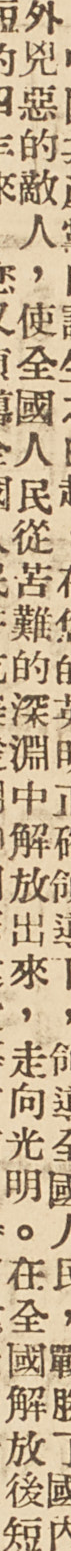外兇惡的敵人，使全國人民從苦難的深淵中解放出來，走向光明。在全國解放後短
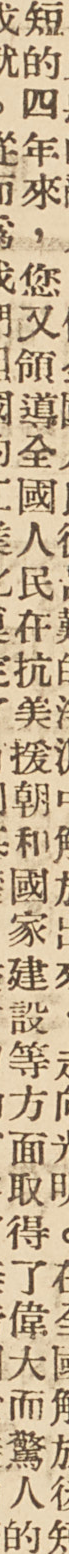短的四年來，您又領導全國人民在抗美援朝和國家建設等方面取得了偉大而驚人的
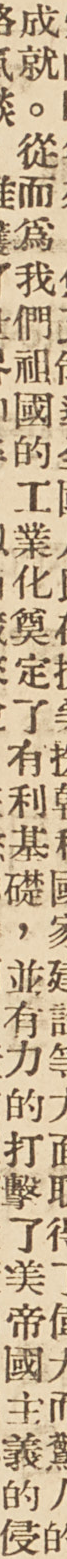成就。從而爲我們祖國的工業化奠定了有力基礎，並有力的打擊了美帝國主義的侵
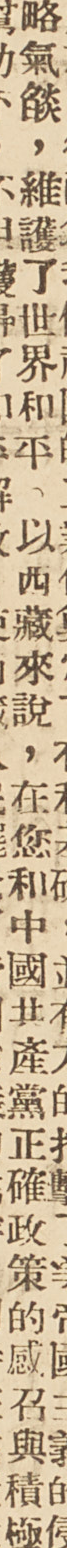略氣燄，維護了世界和平。以西藏來說，在您和中國共產黨正確政策的感召與積極
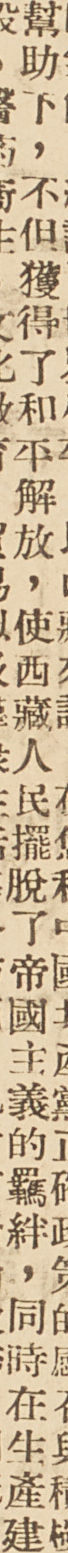幫助下，不但獲得了和平解放，使西藏人民擺脫了帝國主義的羈絆，同時在生產建
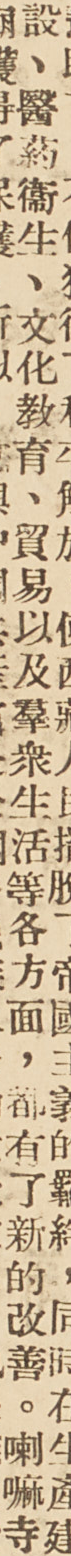設、醫藥衛生、文化教育、貿易以及羣衆生活等各方面，都有了新的改善。喇嘛寺
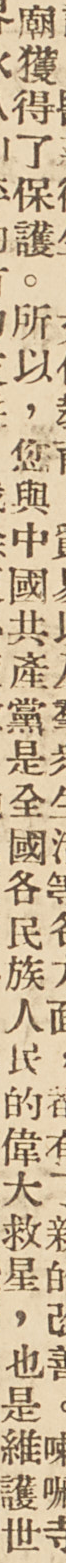廟獲得了保護。所以，您與中國共產黨是全國各民族人民的偉大救星，也是維護世
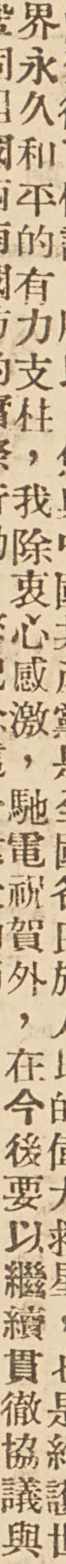界永久和平的有力支柱，我除衷心感激，馳電祝賀外，在今後要以繼續貫徹協議與
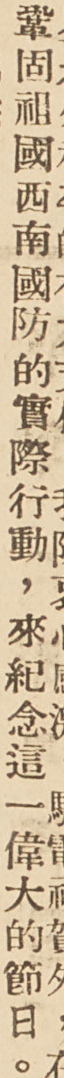鞏固祖國西南國防的實際行動，來紀念這一偉大的節日。
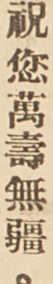祝您萬壽無疆。
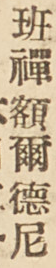班禪額爾德尼
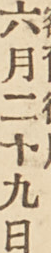六月二十九日
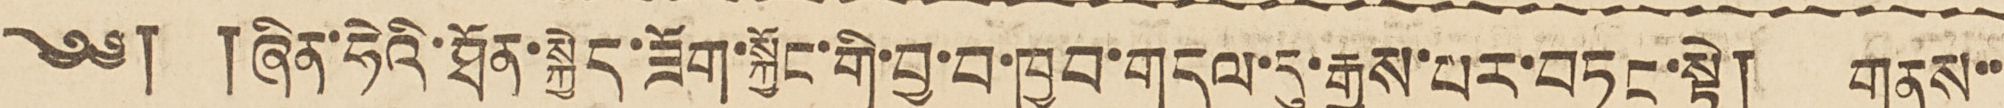༄༅། །ཞིན་ཧེའི་ཐོན་སྐྱེད་ཟོག་སྐྱོང་གི་བྱ་བ་ཁྱབ་གདལ་དུ་རྒྱས་པར་བཏང་སྟེ། གནས་་
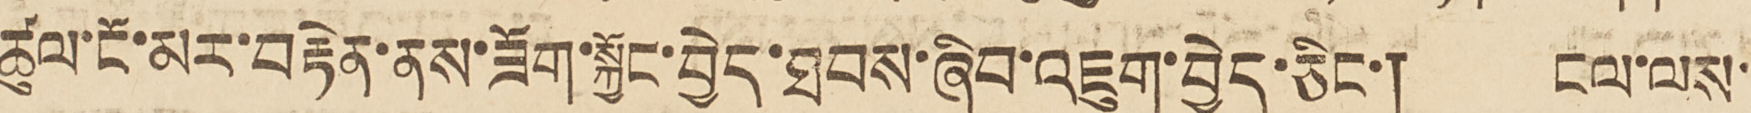ཚུལ་ངོ་མར་བརྟེན་ནས་ཟོག་སྐྱོང་བྱེད་ཐབས་ཞིབ་འཇུག་བྱེད་ཅིང་། ངལ་ལས་
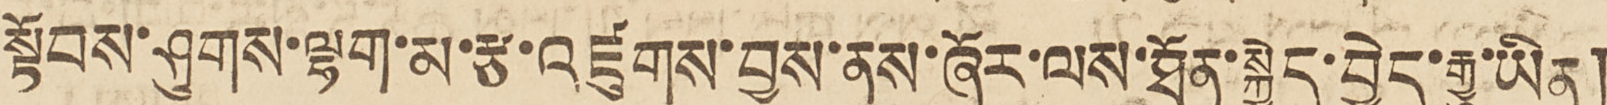སྟོབས་ཤུགས་ལྷག་མ་རྩ་འཛུགས་བྱས་ནས་ཞོར་ལས་ཐོན་སྐྱེད་བྱེད་རྒྱུ་ཡིན།
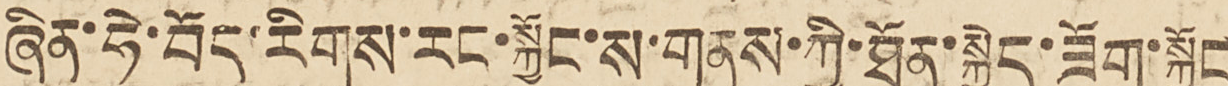ཞིན་ཧེ་བོད་རིགས་རང་སྐྱོང་ས་གནས་ཀྱི་ཐོན་སྐྱེད་ཟོག་སྐྱོང་
